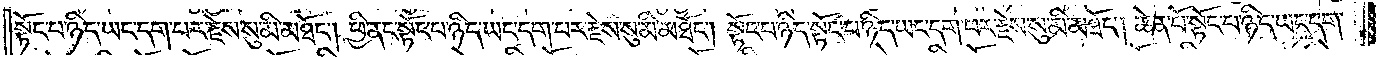སྟོང་པ་ཉིད་ཡང་དག་པར་རྗེས་སུ་མི་མཐོང༌། ཕྱི་ནང་སྟོང་པ་ཉིད་ཡང་དག་པར་རྗེས་སུ་མི་མཐོང༌། སྟོང་པ་ཉིད་སྟོང་པ་ཉིད་ཡང་དག་པར་རྗེས་སུ་མི་མཐོང༌། ཆེན་པོ་སྟོང་པ་ཉིད་ཡང་དག་
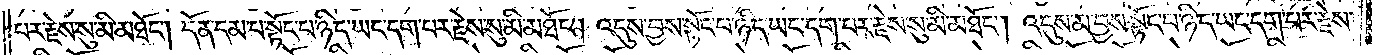པར་རྗེས་སུ་མི་མཐོང༌། དོན་དམ་པ་སྟོང་པ་ཉིད་ཡང་དག་པར་རྗེས་སུ་མི་མཐོང༌། འདུས་བྱས་སྟོང་པ་ཉིད་ཡང་དག་པར་རྗེས་སུ་མི་མཐོང༌། འདུས་མ་བྱས་སྟོང་པ་ཉིད་ཡང་དག་པར་རྗེས་
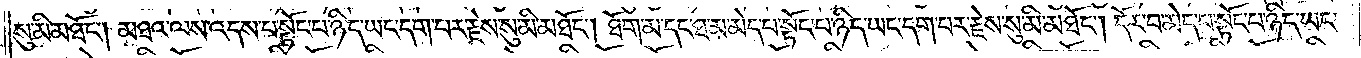སུ་མི་མཐོང༌། མཐའ་ལས་འདས་པ་སྟོང་པ་ཉིད་ཡང་དག་པར་རྗེས་སུ་མི་མཐོང༌། ཐོག་མ་དང་ཐ་མ་མེད་པ་སྟོང་པ་ཉིད་ཡང་དག་པར་རྗེས་སུ་མི་མཐོང༌། དོར་བ་མེད་པ་སྟོང་པ་ཉིད་ཡང་
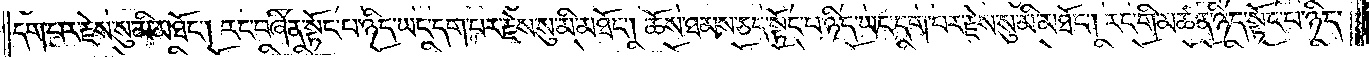དག་པར་རྗེས་སུ་མི་མཐོང༌། རང་བཞིན་སྟོང་པ་ཉིད་ཡང་དག་པར་རྗེས་སུ་མི་མཐོང༌། ཆོས་ཐམས་ཅད་སྟོང་པ་ཉིད་ཡང་དག་པར་རྗེས་སུ་མི་མཐོང༌། རང་གི་མཚན་ཉིད་སྟོང་པ་ཉིད་
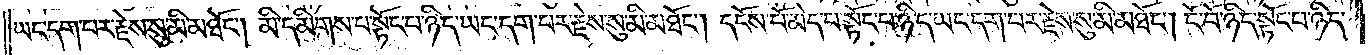ཡང་དག་པར་རྗེས་སུ་མི་མཐོང༌། མི་དམིགས་པ་སྟོང་པ་ཉིད་ཡང་དག་པར་རྗེས་སུ་མི་མཐོང༌། དངོས་པོ་མེད་པ་སྟོང་པ་ཉིད་ཡང་དག་པར་རྗེས་སུ་མི་མཐོང༌། ངོ་བོ་ཉིད་སྟོང་པ་ཉིད་
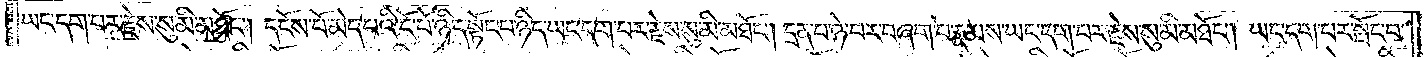ཡང་དག་པར་རྗེས་སུ་མི་མཐོང༌། དངོས་པོ་མེད་པའི་ངོ་བོ་ཉིད་སྟོང་པ་ཉིད་ཡང་དག་པར་རྗེས་སུ་མི་མཐོང༌། དྲན་པ་ཉེ་བར་བཞག་པ་རྣམས་ཡང་དག་པར་རྗེས་སུ་མི་མཐོང༌། ཡང་དག་པར་སྤོང་བ་
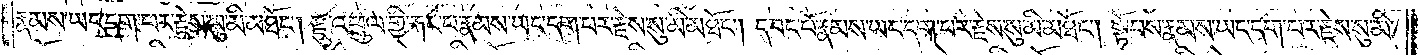རྣམས་ཡང་དག་པར་རྗེས་སུ་མི་མཐོང༌། རྫུ་འཕྲུལ་གྱི་རྐང་པ་རྣམས་ཡང་དག་པར་རྗེས་སུ་མི་མཐོང༌། དབང་པོ་རྣམས་ཡང་དག་པར་རྗེས་སུ་མི་མཐོང༌། སྟོབས་རྣམས་ཡང་དག་པར་རྗེས་སུ་མི་
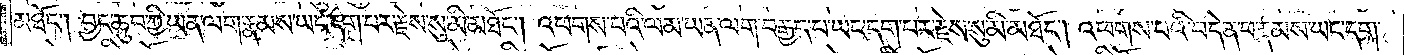མཐོང༌། བྱང་ཆུབ་ཀྱི་ཡན་ལག་རྣམས་ཡང་དག་པར་རྗེས་སུ་མི་མཐོང༌། འཕགས་པའི་ལམ་ཡན་ལག་བརྒྱད་པ་ཡང་དག་པར་རྗེས་སུ་མི་མཐོང༌། འཕགས་པའི་བདེན་པ་རྣམས་ཡང་དག་
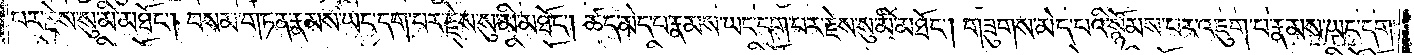པར་རྗེས་སུ་མི་མཐོང༌། བསམ་གཏན་རྣམས་ཡང་དག་པར་རྗེས་སུ་མི་མཐོང༌། ཚད་མེད་པ་རྣམས་ཡང་དག་པར་རྗེས་སུ་མི་མཐོང༌། གཟུགས་མེད་པའི་སྙོམས་པར་འཇུག་པ་རྣམས་ཡང་དག་པར་
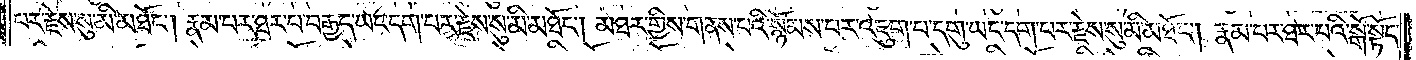རྗེས་སུ་མི་མཐོང༌། རྣམ་པར་ཐར་པ་བརྒྱད་ཡང་དག་པར་རྗེས་སུ་མི་མཐོང༌། མཐར་གྱིས་གནས་པའི་སྙོམས་པར་འཇུག་པ་དགུ་ཡང་དག་པར་རྗེས་སུ་མི་མཐོང༌། རྣམ་པར་ཐར་པའི་སྒོ་སྟོང་
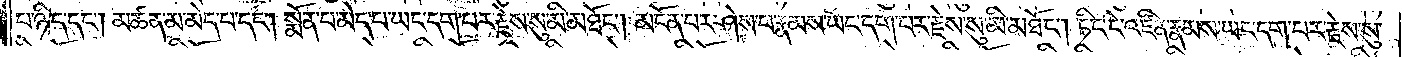པ་ཉིད་དང༌། མཚན་མ་མེད་པ་དང༌། སྨོན་པ་མེད་པ་ཡང་དག་པར་རྗེས་སུ་མི་མཐོང༌། མངོན་པར་ཤེས་པ་རྣམས་ཡང་དག་པར་རྗེས་སུ་མི་མཐོང༌། ཏིང་ངེ་འཛིན་རྣམས་ཡང་དག་པར་རྗེས་སུ་
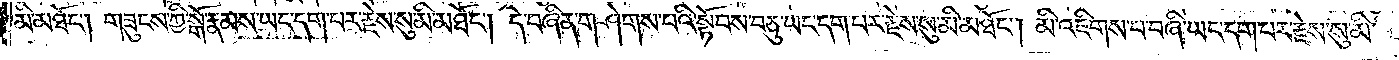མི་མཐོང༌། གཟུངས་ཀྱི་སྒོ་རྣམས་ཡང་དག་པར་རྗེས་སུ་མི་མཐོང༌། དེ་བཞིན་གཤེགས་པའི་སྟོབས་བཅུ་ཡང་དག་པར་རྗེས་སུ་མི་མཐོང༌། མི་འཇིགས་པ་བཞི་ཡང་དག་པར་རྗེས་སུ་མི་
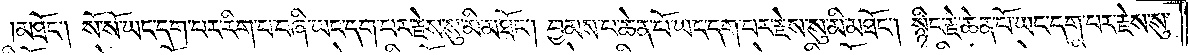མཐོང༌། སོ་སོ་ཡང་དག་པར་རིག་པ་བཞི་ཡང་དག་པར་རྗེས་སུ་མི་མཐོང༌། བྱམས་པ་ཆེན་པོ་ཡང་དག་པར་རྗེས་སུ་མི་མཐོང༌། སྙིང་རྗེ་ཆེན་པོ་ཡང་དག་པར་རྗེས་སུ་
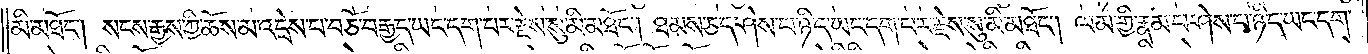མི་མཐོང༌། སངས་རྒྱས་ཀྱི་ཆོས་མ་འདྲེས་པ་བཅོ་བརྒྱད་ཡང་དག་པར་རྗེས་སུ་མི་མཐོང༌། ཐམས་ཅད་ཤེས་པ་ཉིད་ཡང་དག་པར་རྗེས་སུ་མི་མཐོང༌། ལམ་གྱི་རྣམ་པ་ཤེས་པ་ཉིད་ཡང་དག་
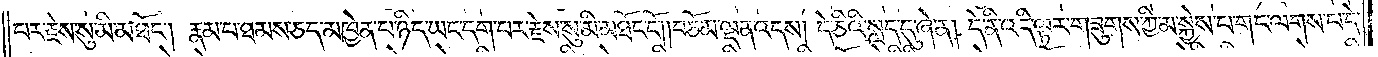པར་རྗེས་སུ་མི་མཐོང༌། རྣམ་པ་ཐམས་ཅད་མཁྱེན་པ་ཉིད་ཡང་དག་པར་རྗེས་སུ་མི་མཐོང་ངོ༌། །བཅོམ་ལྡན་འདས། དེ་ཅིའི་སླད་དུ་ཞེ་ན། དེ་ནི་འདི་ལྟར་གཟུགས་ཀྱི་མ་སྐྱེས་པ་གང་ལགས་པ་དེ་
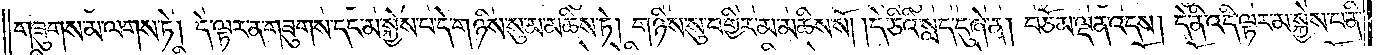གཟུགས་མ་ལགས་ཏེ། དེ་ལྟར་ན་གཟུགས་དང་མ་སྐྱེས་པ་དེ་གཉིས་སུ་མ་མཆིས་ཏེ། གཉིས་སུ་བགྱིར་མ་མཆིས་སོ། །དེ་ཅིའི་སླད་དུ་ཞེ་ན། བཅོམ་ལྡན་འདས། དེ་ནི་འདི་ལྟར་མ་སྐྱེས་པ་ནི་
